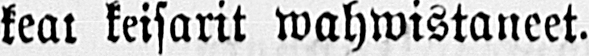keat keisarit wahwistaneet.
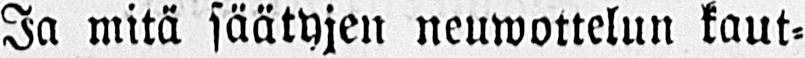Ja mitä säätyjen neuwottelun kaut-
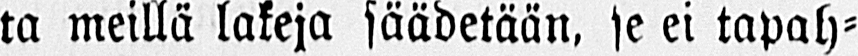ta meillä lakeja säädetään, se ei tapah-
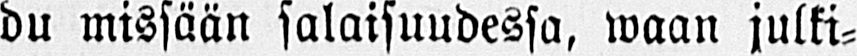du missään salaisuudessa, waan julki-
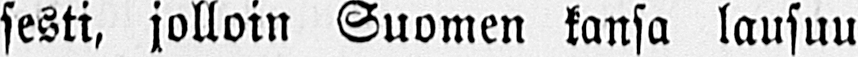sesti, jolloin Suomen kansa lausuu
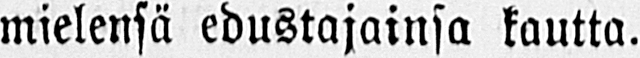mielensä edustajainsa kautta.
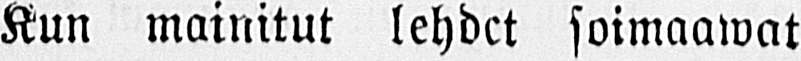Kun mainitut lehdet soimaawat
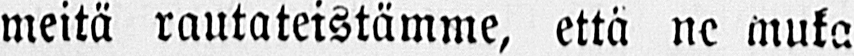meitä rautateistämme, että ne muka
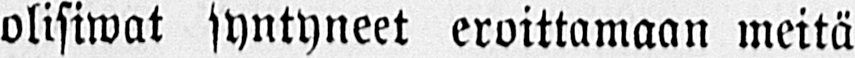olisiwat syntyneet eroittamaan meitä
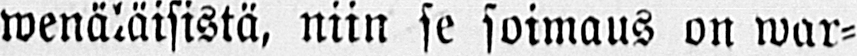wenäläisistä, niin se soimaus on war-
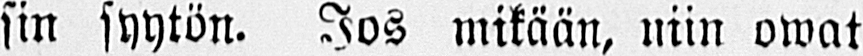sin syytön. Jos mikään, niin owat
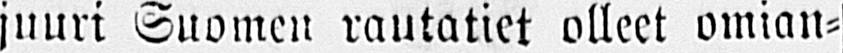juuri Suomen rautatiet olleet omian-
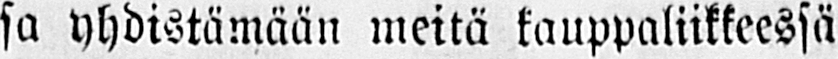sa yhdistämään meitä kauppaliikkeessä
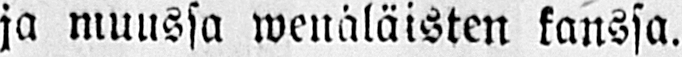ja muussa wenäläisten kanssa.
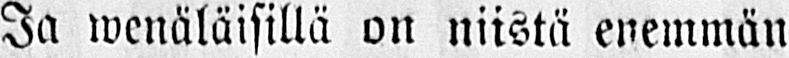Ja wenäläisillä on niistä enemmän
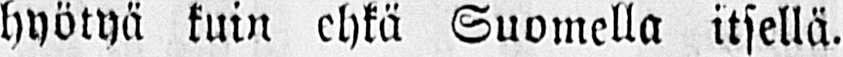hyötyä kuin ehkä Suomella itsellä.
